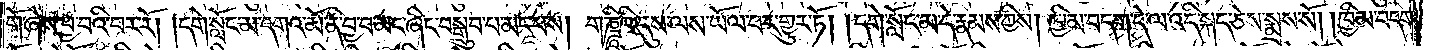གོ་ཞེས་བྱ་བའི་བར་རོ། །དགེ་སློང་མ་དགའ་མོ་ནི་བྱ་བ་མང་ཞིང་བསྒྲུབ་པ་མང་བས། གཎྜཱིའི་དུས་ལས་ཡོལ་བར་གྱུར་ཏོ། །དགེ་སློང་མ་དེ་རྣམས་ཀྱིས། ཁྱིམ་བདག་དེ་ལ་འདི་སྐད་ཅེས་སྨྲས་སོ། །ཁྱིམ་བདག་
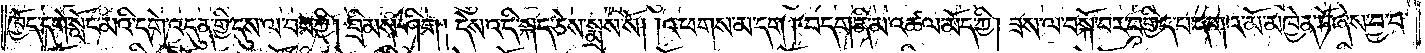ཁྱོད་དགེ་སློང་མའི་དགེ་འདུན་གྱི་དུས་ལ་བབ་ཀྱི། བྲིམས་ཤིག། དེས་འདི་སྐད་ཅེས་སྨྲས་སོ། །འཕགས་མ་དང༌། བདག་ནི་མ་འཚལ་མོད་ཀྱི། ཟས་ལ་བསྐོ་བར་བགྱིད་པ་དགའ་མོ་མཁྱེན་ཏོ་ཞེས་བྱ་བ་
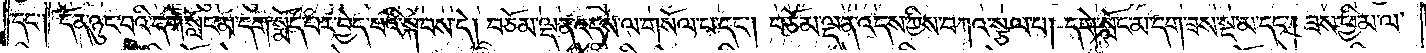དང༌། དོན་ཉུང་བའི་དགེ་སློང་མ་དག་སྨོད་པར་བྱེད་པའི་སྐབས་དེ། བཅོམ་ལྡན་འདས་ལ་གསོལ་པ་དང༌། བཅོམ་ལྡན་འདས་ཀྱིས་བཀའ་སྩལ་པ། དགེ་སློང་མ་དག་ཟས་སྔ་མ་དང༌། ཟས་ཕྱི་མ་ལ་
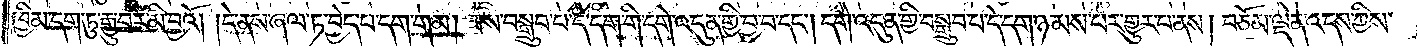ཁྱིམ་དག་ཏུ་རྒྱུ་བར་མི་བྱའོ། །དེ་ནས་ཞལ་ཏ་བྱེད་པ་དག་གམ། ཟས་བསྒྲུབ་པ་དེ་དག་གི་དགེ་འདུན་གྱི་བྱ་བ་དང༌། དགེ་འདུན་གྱི་བསྒྲུབ་པ་དེ་དག་ཉམས་པར་གྱུར་པ་ནས། བཅོམ་ལྡན་འདས་ཀྱིས་
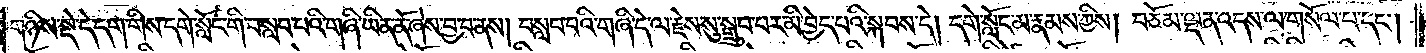གཉིས་སྡེ་དེ་དག་གིས་དགེ་སློང་གི་བསླབ་པའི་གཞི་ཡིན་ནོ་ཞེས་བྱ་བ་ནས། བསླབ་པའི་གཞི་དེ་ལ་རྗེས་སུ་སྒྲུབ་པར་མི་བྱེད་པའི་སྐབས་དེ། དགེ་སློང་མ་རྣམས་ཀྱིས། བཅོམ་ལྡན་འདས་ལ་གསོལ་པ་དང༌།
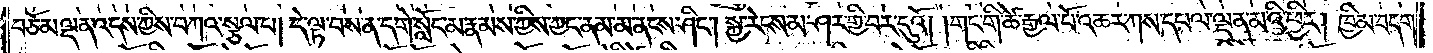བཅོམ་ལྡན་འདས་ཀྱིས་བཀའ་སྩལ་པ། དེ་ལྟ་བས་ན་དགེ་སློང་མ་རྣམས་ཀྱིས་ཀྱང་ནམ་མ་ནངས་ཤིང༌། སྐྱ་རེངས་མ་ཤར་གྱི་བར་དུའོ། །གང་གི་ཚེ་རྒྱལ་པོ་འཆར་ཀས་དཔལ་ལྡན་མའི་ཕྱིར། ཁྱིམ་བདག་
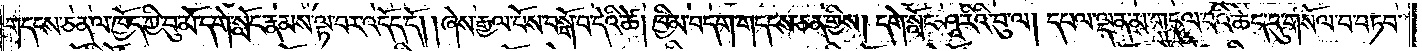གདངས་ཅན་ལ་ཁྱོད་ཀྱི་བུ་མོ་དགེ་སློང་རྣམས་ལྟ་བར་འདོད་དོ། །ཞེས་རྒྱལ་པོས་བསྒོ་བ་དེའི་ཚེ། ཁྱིམ་བདག་གདངས་ཅན་གྱིས། དགེ་སློང་ཤཱ་རིའི་བུ་ལ། དཔལ་ལྡན་མ་གདུལ་བའི་ཆེད་དུ་གསོལ་བ་བཏབ་
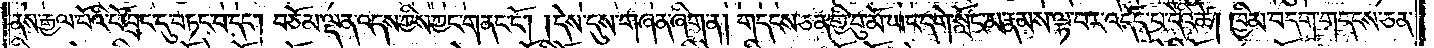ནས་རྒྱལ་པོའི་ཕོ་བྲང་དུ་བཏང་བ་དང༌། བཅོམ་ལྡན་འདས་ཀྱིས་ཀྱང་གནང་ངོ༌། །དེས་དུས་གཞན་ཞིག་ན། གདངས་ཅན་གྱི་བུ་མོ་ཡང་དགེ་སློང་མ་རྣམས་ལྟ་བར་འདོད་པ་དེའི་ཚེ། ཁྱིམ་བདག་གདངས་ཅན་
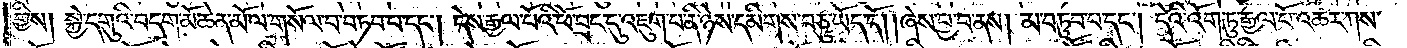གྱིས། སྐྱེ་དགུའི་བདག་མོ་ཆེན་མོ་ལ་གསོལ་བ་བཏབ་པ་དང༌། དེས་རྒྱལ་པོའི་ཕོ་བྲང་དུ་འཇུག་པ་ནི་ཉེས་དམིགས་བཅུ་ཡོད་དོ། །ཞེས་བྱ་བ་ནས། མ་བཏུབ་པ་དང༌། དེའི་འོག་ཏུ་རྒྱལ་པོ་འཆར་ཀས་
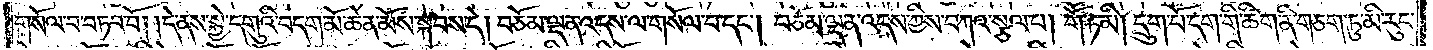གསོལ་བ་བཏབ་བོ། །དེ་ནས་སྐྱེ་དགུའི་བདག་མོ་ཆེན་མོས་སྐབས་དེ། བཅོམ་ལྡན་འདས་ལ་གསོལ་པ་དང༌། བཅོམ་ལྡན་འདས་ཀྱིས་བཀའ་སྩལ་པ། གཽ་ཏ་མི། དྲུག་པོ་དག་གི་ཚིག་ནི་གཅག་ཏུ་མི་རུང་
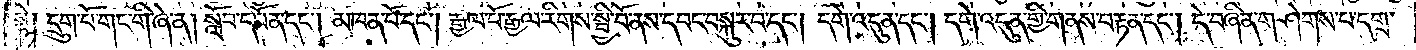སྟེ། དྲུག་པོ་གང་གི་ཞེ་ན། སློབ་དཔོན་དང༌། མཁན་པོ་དང༌། རྒྱལ་པོ་རྒྱལ་རིགས་སྤྱི་བོ་ནས་དབང་བསྐུར་བ་དང༌། དགེ་འདུན་དང༌། དགེ་འདུན་གྱི་གནས་བརྟན་དང༌། དེ་བཞིན་གཤེགས་པ་དགྲ་
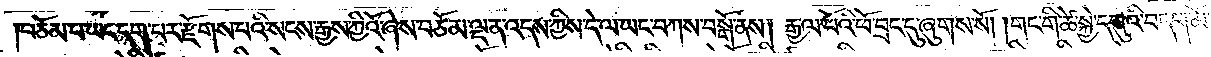བཅོམ་པ་ཡང་དག་པར་རྫོགས་པའི་སངས་རྒྱས་ཀྱིའོ་ཞེས་བཅོམ་ལྡན་འདས་ཀྱིས་དེ་ལ་ཡང་བཀས་བསྒོ་ནས། རྒྱལ་པོའི་ཕོ་བྲང་དུ་ཞུགས་སོ། །གང་གི་ཚེ་སྐྱེ་དགུའི་བདག་མོ་
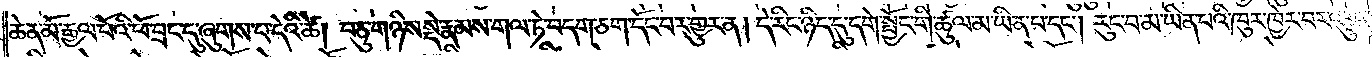ཆེན་མོ་རྒྱལ་པོའི་ཕོ་བྲང་དུ་ཞུགས་པ་དེའི་ཚེ། བཅུ་གཉིས་སྡེ་རྣམས་གལ་ཏེ་བདག་ཅག་དོང་བར་གྱུར་ན། དེ་རིང་ཉིད་དུ་དགེ་སྦྱོང་གི་ཚུལ་མ་ཡིན་པ་དང༌། རུང་བ་མ་ཡིན་པའི་ཁུར་ཁྱེར་བར་འགྱུར་
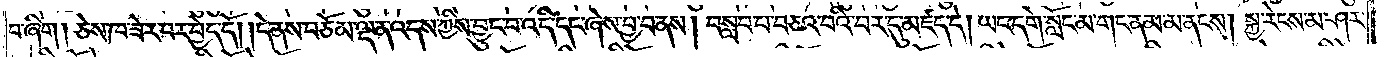བ་ཞིག། ཅེས་ཁ་ཟེར་བར་བྱེད་དོ། །དེ་ནས་བཅོམ་ལྡན་འདས་ཀྱིས་བྱུང་བ་འདི་དང་ཞེས་བྱ་བ་ནས། བསླབ་པ་བཅའ་བའི་བར་དུ་མཛད་དེ། ཡང་དགེ་སློང་མ་གང་ནམ་མ་ནངས། སྐྱ་རེངས་མ་ཤར་
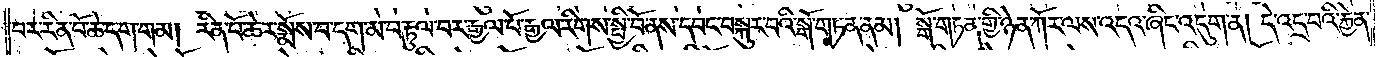བར་རིན་པོ་ཆེ་དག་གམ། རིན་པོ་ཆེར་སྨོས་བ་དག་མ་བརྟུལ་བར་རྒྱལ་པོ་རྒྱལ་རིགས་སྤྱི་བོ་ནས་དབང་བསྐུར་བའི་སྒོ་གཏན་ནམ། སྒོ་གཏན་གྱི་ཉེན་ཀོར་ལས་འདའ་ཞིང་འདུག་ན། དེ་འདྲ་བའི་རྐྱེན་
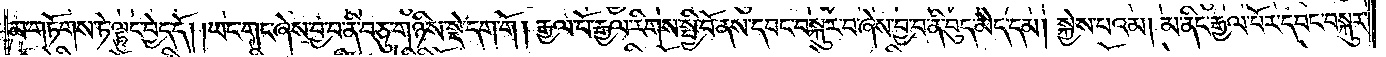མ་གཏོགས་ཏེ་ལྟུང་བྱེད་དོ། །ཡང་གང་ཞེས་བྱ་བ་ནི་བཅུ་གཉིས་སྡེ་དག་གོ། རྒྱལ་པོ་རྒྱལ་རིགས་སྤྱི་བོས་ནས་དབང་བསྐུར་བ་ཞེས་བྱ་བ་ནི་བུད་མེད་དམ། སྐྱེས་པའམ། མ་ནིང་རྒྱལ་པོར་དབང་བསྐུར་
